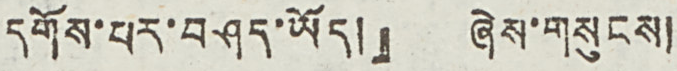དགོས་པར་བཤད་ཡོད།』 ཞེས་གསུངས།
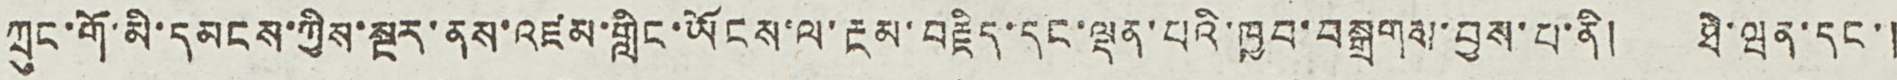ཀྲུང་གོ་མི་དམངས་ཀྱིས་སྔར་ནས་འཛམ་གླིང་ཡོངས་ལ་རྔམ་བརྗིད་དང་ལྡན་པའི་ཁྱབ་བསྒྲགས་བྱས་པ་ནི། ཐེ་ཝན་དང་།
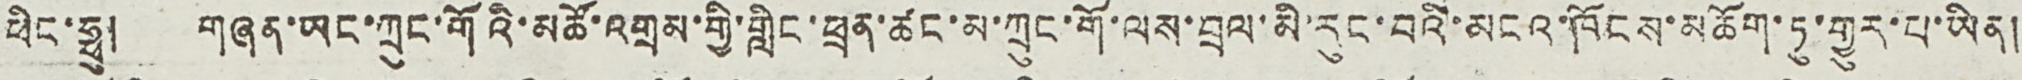ཕིང་ཧྥུ། གཞན་ཡང་ཀྲུང་གོའི་མཚོ་འགྲམ་གྱི་གླིང་ཕྲན་ཚང་མ་ཀྲུང་གོ་ལས་བྲལ་མི་རུང་བའི་མངའ་ཁོངས་མཆོག་ཏུ་གྱུར་པ་ཡིན།
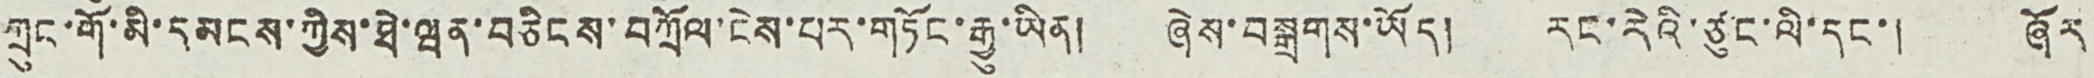ཀྲུང་གོ་མི་དམངས་ཀྱིས་ཐེ་ཝན་བཅིངས་བཀྲོལ་ངེས་པར་གཏོང་རྒྱུ་ཡིན། ཞེས་བསྒྲགས་ཡོད། རང་རེའི་ཙུང་ལི་དང་། ཞོར
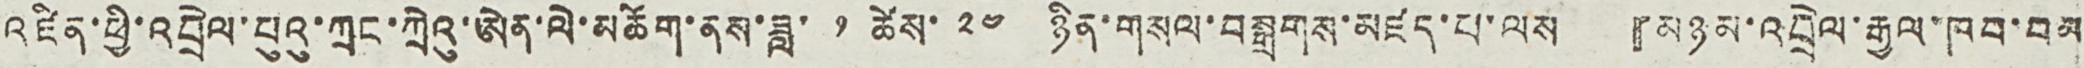འཛིན་ཕྱི་འབྲེལ་པུའུ་ཀྲང་ཀྲེའུ་ཨེན་ལེ་མཆོག་ནས་ཟླ་ ༡ ཚེས་ ༢༤ ཉིན་གསལ་བསྒྲགས་མཛད་པ་ལས 『མཉམ་འབྲེལ་རྒྱལ་ཁབ་བམ
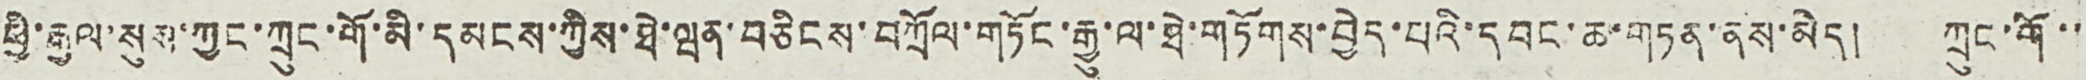ཕྱི་རྒྱལ་སུས་ཀྱང་ཀྲུང་གོ་མི་དམངས་ཀྱིས་ཐེ་ཝན་བཅིངས་བཀྲོལ་གཏོང་རྒྱུ་ལ་ཐེ་གཏོགས་བྱེད་པའི་དབང་ཆ་གཏན་ནས་མེད། ཀྲུང་གོ་་
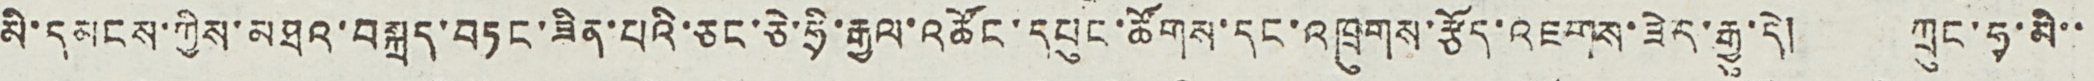མི་དམངས་ཀྱིས་མཐའ་བསྐྲད་བཏང་ཟིན་པའི་ཅང་ཅེ་ཧྲི་རྒྱལ་འཚོང་དཔུང་ཚོགས་དང་འཁྲུགས་རྩོད་འཇགས་ཟེར་རྒྱུ་དེ། ཀྲུང་ཧྭ་མི་་
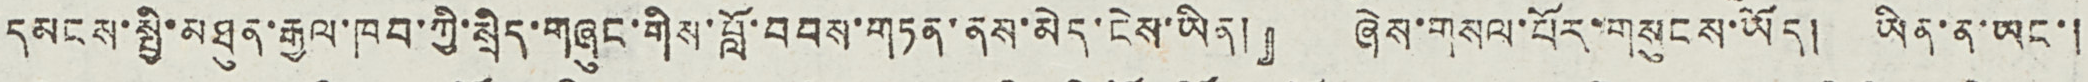དམངས་སྤྱི་མཐུན་རྒྱལ་ཁབ་ཀྱི་སྲིད་གཞུང་གིས་བློ་བབས་གཏན་ནས་མེད་ངེས་ཡིན།』 ཞེས་གསལ་པོར་གསུངས་ཡོད། ཡིན་ན་ཡང་།
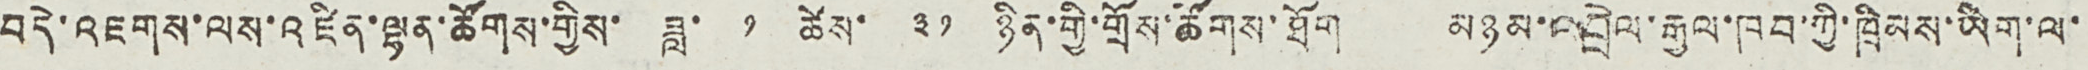བདེ་འཇགས་ལས་འཛིན་ལྷན་ཚོགས་གྱིས་ ཟླ་ ༡ ཚེས་ ༣༡ ཉིན་གྱི་གྲོས་ཚོགས་ཐོག མཉམ་འབྲེལ་རྒྱལ་ཁབ་ཀྱི་ཁྲིམས་ཡིག་ལ་
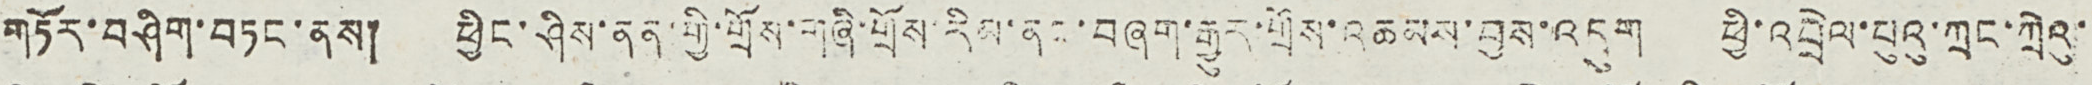གཏོར་བཤིག་བཏང་ནས། ཕྱིང་ཤིས་ནན་གྱི་གྲོས་གཞི་གྲོས་རིམ་ནང་བཞག་རྒྱུར་གྲོས་འཆམས་བྱས་འདུག ཕྱི་འབྲེལ་པུའུ་ཀྲང་ཀྲེའུ་
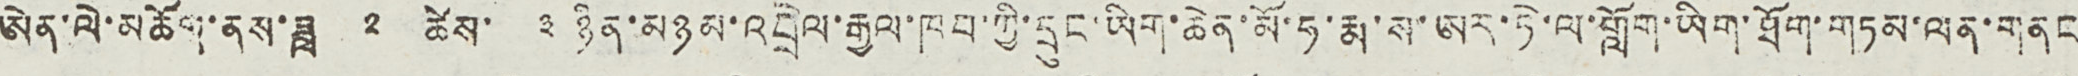ཨེན་ལེ་མཆོག་ནས་ཟླ ༢ ཚེས་ ༣ ཉིན་མཉམ་འབྲེལ་རྒྱལ་ཁབ་ཀྱི་དྲུང་ཡིག་ཆེན་མོ་ཧ་རྨ་ས་ཨར་ཏེ་ལ་གློག་ཡིག་ཐོག་གཏམ་ལན་གནང
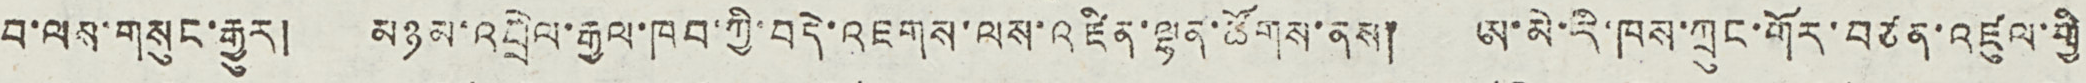བ་ལས་གསུང་རྒྱུར། མཉམ་འབྲེལ་རྒྱལ་ཁབ་ཀྱི་བདེ་འཇགས་ལས་འཛིན་ལྷན་ཚོགས་ནས། ཨ་མེ་རི་ཁས་ཀྲུང་གོར་བཙན་འཛུལ་གྱི
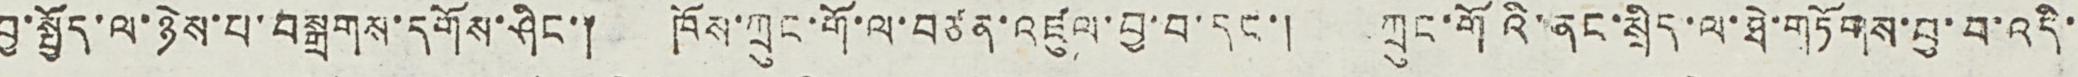བྱ་སྤྱོད་ལ་ཉེས་པ་བསྒྲགས་དགོས་ཤིང་། ཁོས་ཀྲུང་གོ་ལ་བཙན་འཛུལ་བྱ་བ་དང་། ཀྲུང་གོའི་ནང་སྲིད་ལ་ཐེ་གཏོགས་བྱ་བ་འདི་
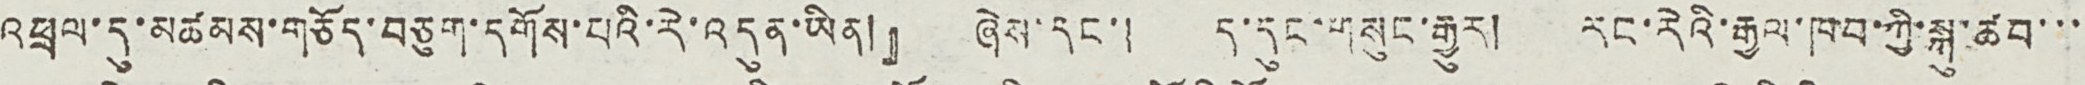འཕྲལ་དུ་མཚམས་གཅོད་བཅུག་དགོས་པའི་རེ་འདུན་ཡིན།』 ཞེས་དང་། ད་དུང་གསུང་རྒྱུར། རང་རེའི་རྒྱལ་ཁབ་ཀྱི་སྐུ་ཚབ་་་
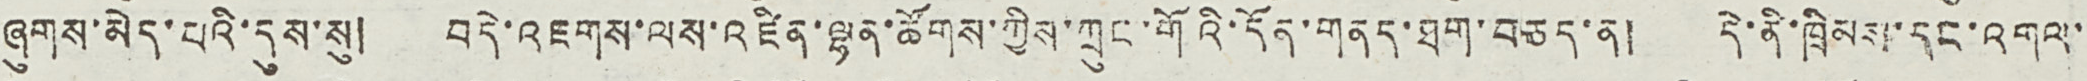ཞུགས་མེད་པའི་དུས་སུ། བདེ་འཇགས་ལས་འཛིན་ལྷན་ཚོགས་ཀྱིས་ཀྲུང་གོའི་དོན་གནད་ཐག་བཅད་ན། དེ་ནི་ཁྲིམས་དང་འགལ་
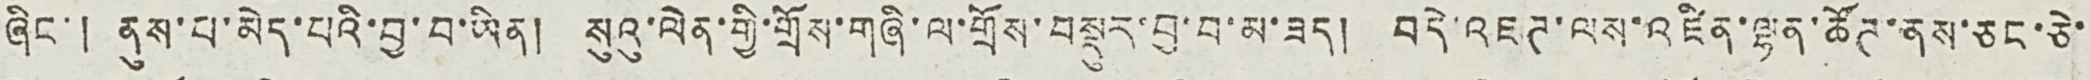ཞིང་། ནུས་པ་མེད་པའི་བྱ་བ་ཡིན། སུའུ་ལེན་གྱི་གྲོས་གཞི་ལ་གྲོས་བསྡུར་བྱ་བ་མ་ཟད། བདེ་འཇཊ་ལས་འཛིན་ལྷན་ཚོཊ་ནས་ཅང་ཅེ་
